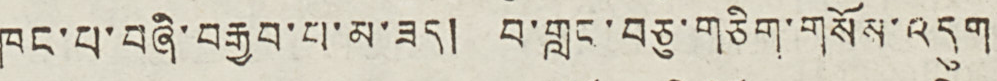ཁང་པ་བཞི་བརྒྱབ་པ་མ་ཟད། བ་གླང་བཅུ་གཅིག་གསོས་འདུག
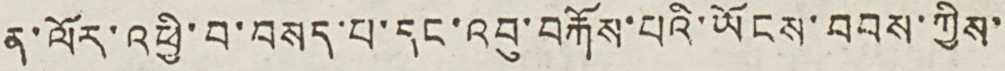ན་ལོར་འཕྱི་བ་བསད་པ་དང་འབུ་བརྐོས་པའི་ཡོངས་བབས་ཀྱིས་
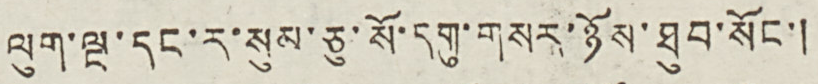ལུག་ལྔ་དང་ར་སུམ་ཅུ་སོ་དགུ་གསར་ཉོས་ཐུབ་སོང་།
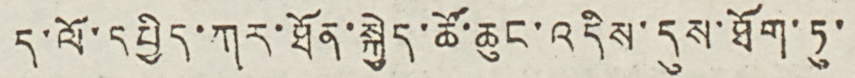ད་ལོ་དཔྱིད་ཀར་ཐོན་སྐྱེད་ཚོ་ཆུང་འདིས་དུས་ཐོག་ཏུ་
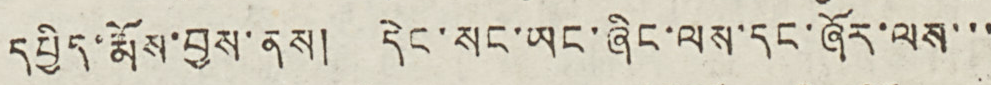དཔྱིད་རྨོས་བྱས་ནས། དེང་སང་ཡང་ཞིང་ལས་དང་ཞོར་ལས་་་
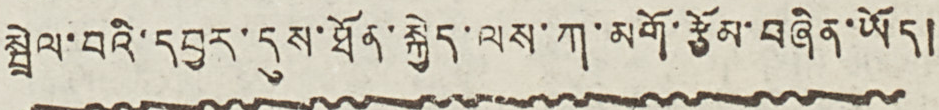སྦྲེལ་བའི་དབྱར་དུས་ཐོན་སྐྱེད་ལས་ཀ་མགོ་རྩོམ་བཞིན་ཡོད།
